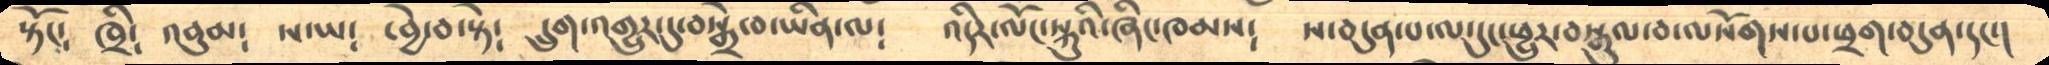སྟོང༴   ཁྲི༴  འབུམ༴   ས་ཡ༴  ་བྱེ་བ་སྟེ༴  དྲུག་འགྱུར་དུ་བསྒྲེ་བ་ཡིན་ལ༴   འདིར་ལོང་སྐུའི་ཞིང་ཁམས༴  ས་བདུན་པ་ལ་དུང་ཕྱུར་བསྒུལ་བ་ལསོགས་པ་ཕྲག་བདུན་དང་།
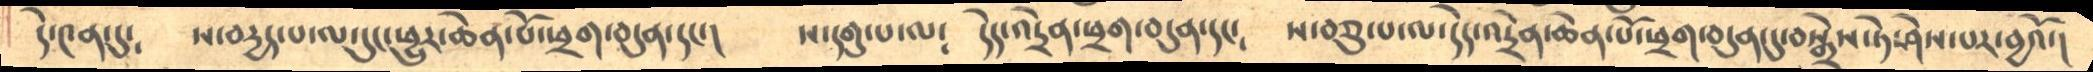དེ་༤ན་དུ༴    ས་བདྱད་པ་ལ་དུང་ཕྱུར་ཆེན་པོ་ཕྲག་བདུན་དང་།    ས་དགུ་པ་ལ༴   དེད་འདྲེན་ཕྲག་བདུན་དང༴   ས་བཅུ་པ་ལ་དེད་འདྲེན་ཆེན་པོ་ཕྲག་བདུན་དུ་བསྒྲེས་ཏེ་ཤེས་པར་བྱའོ་།
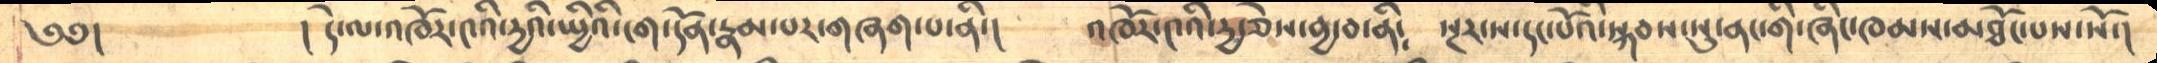༄༅།           ། དེ་ལ་འཁོར་༤འི་དྱའི་སྤྱིའི་ངག་དོན་རྣམ་པར་གཞག་པ་ནི་།    འཁོར་༤འི་དྱ་ཅེས་བྱ་བ་ནི༴   སྔར་ས་དང་པོའི་སྐབས་སུ་ནང་གི་ཞིང་ཁམས་མཐོང་པས་སོ་།
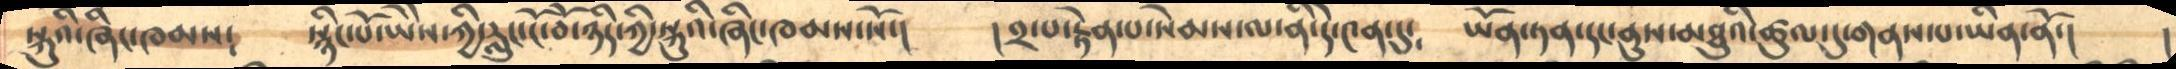སྐུའི་ཞིང་ཁམས༴   སྙིང་པོ་ཡཻས་ཀྱི་རླུང་ངོ་བོ་ཉིད་ཀྱི་སྐུའི་ཞིང་ཁམས་སོ་།    །༢་པ་རྟེན་པ་སེམས་ལ་ནི་དེ་༤ན་དུ༴  ཡོན་ཏན་དང་ནུས་མཐུའི་ཚུལ་དུ་གནས་པ་ཡིན་ནོ་།   །
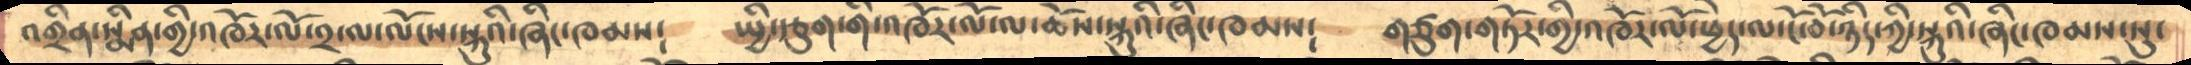འགྲིན་སྨིན་གྱི་འཁོར་ལོ་༢་ལ་ལོངས་སྐུའི་ཞིང་ཁམས༴   སྤྱི་རྩུག་གི་འཁོར་ལོ་ལ་ཆོས་སྐུའི་ཞིང་ཁམས༴   གཙུག་གཏོར་གྱི་འཁོར་ལོ་ཕྱེད་ལ་ངོ་བོ་ཉིད་ཀྱི་སྐུའི་ཞིང་ཁམས་སུ་
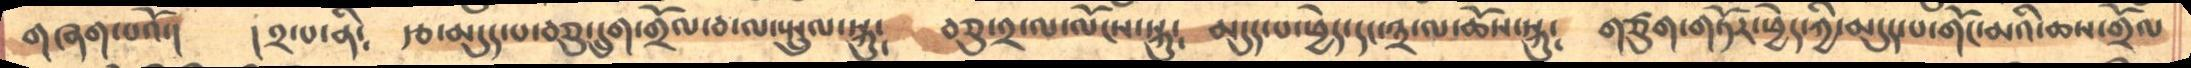གཞག་པའོ་།   །༢་པ་ནི༴   རྩ་མདུད་པ་བཅུ་དྲུག་གྲོལ་བ་ལ་སྤྲུལ་སྐུ༴   བཅུ་༢་ལ་ལོངས་སྐུ༴  མདུད་པ་ཕྱེད་དང་༣་ལ་ཆོས་སྐུ༴  གཙུག་གཏོར་ཕྱེད་ཀྱི་མདུད་པ་གོང་མའི་ཆས་གྲོལ
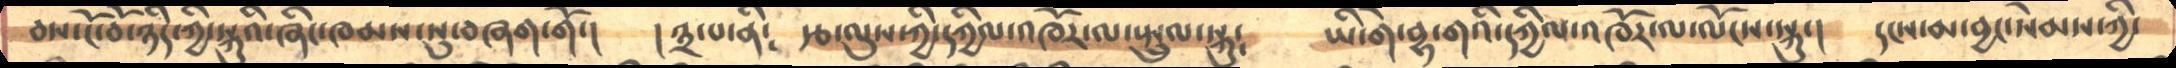བས་ངོ་བོ་ཉིད་ཀྱི་སྐུའི་ཞིང་ཁམས་སུ་བཞག་གོ་།   །༣་པ་ནི༴  རྩ་ལུས་ཀྱི་དཀྱིལ་འཁོར་ལ་སྤྲུལ་སྐུ༴  ཡི་གེ་བྷ་གའི་དཀྱིལ་འཁོར་ལ་ལོངས་སྐུ་། དངས་མ་བྱང་སེམས་ཀྱི་
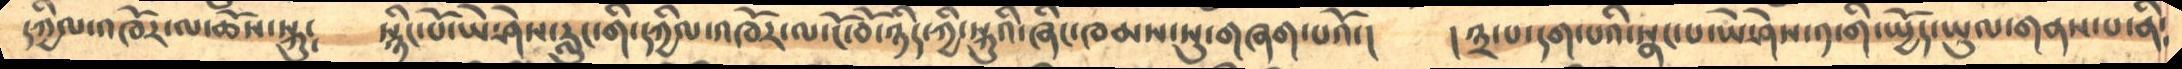དཀྱིལ་འཁོར་ལ་ཆོས་སྐུ༴    སྙིང་པོ་ཡེ་ཤེས་རླུང་གི་དཀྱིལ་འཁོར་ལ་ངོ་བོ་ཉིད་ཀྱི་སྐུའི་ཞིང་ཁམས་སུ་གཞག་པའོ་།   །༣་པ་དག་པའི་སྣང་པ་ཡེ་ཤེས་༡་གི་སྤྱོད་ཡུལ་གནས་པ་ནི༴
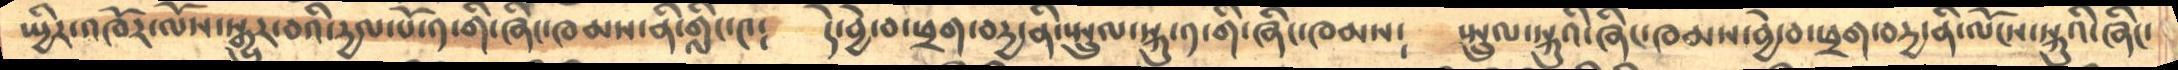སྤྱིར་འཁོར་ལོས་སྒྱུར་བའི་དྱལ་པོ་༡་གི་ཞིང་ཁམས་ནི་གླིང་༤༴   དེ་བྱེ་བ་ཕྲག་བདྱ་ནི་སྤྲུལ་སྐུ་༡་གི་ཞིང་ཁམས༴   སྤྲུལ་སྐུའི་ཞིང་ཁམས་བྱེ་བ་ཕྲག་བདྱ་ནི་ལོངས་སྐུའི་ཞིང་
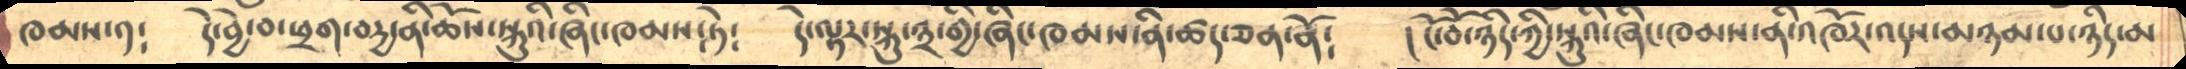ཁམས་༡༴     དེ་བྱེ་བ་ཕྲག་བདྱ་ནི་ཆོས་སྐུའི་ཞིང་ཁམས༴ཏེ༴   དེ་ལྟར་སྐུ་༣་གྱི་ཞིང་ཁམས་ནི་ཚད་ཅན་ནོ༴   ། ངོ་བོ་ཉིད་ཀྱི་སྐུའི་ཞིང་ཁམས་ནི་འཁོར་འདས་མཉམ་པ་ཉིད་མ
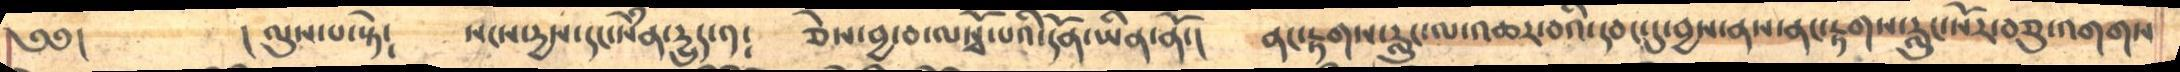༄༅།          ། ལུས་པ་སྟེ༴    སངས་དྱས་དང་སེཾན་དྱུད་༡༴   ཅེས་བྱ་བ་ལསྭོ་པའི་དོན་ཡིན་ནོ་།   ནང་རྟགས་རླུང་ལ་འཆར་བའི་དབང་དུ་བྱས་ནས་ནང་རྟགས་རླུང་སོར་བཅུ་འགགས
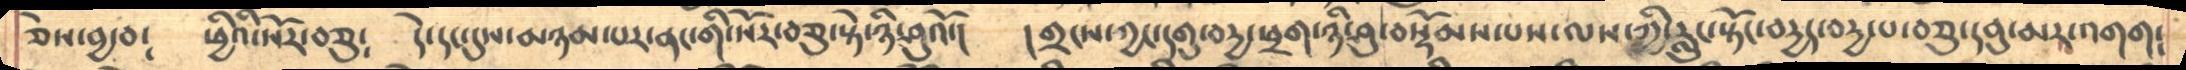ཅེས་བྱ་བ༴     ཕྱིའི་སོར་བཅུ༴    དེ་དང་དུས་མཉམ་པར་ནང་གི་སོར་བཅུ་སྟེ་ཉི་ཤུའོ་།    །གྲངས་ཀྱང་དགུ་བདྱ་ཕྲག་ཉི་ཤུ་བསྡོམས་པས་ལས་ཀྱི་རླུང་སྟོང་བདྱད་བདྱ་པ་བཅུ་དབུ་མར་འགག༴
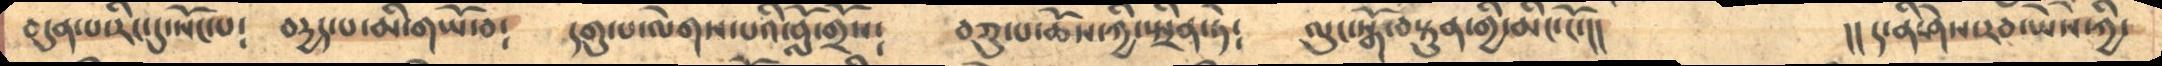བདུན་པ་རིང་དུ་སོང་པ༴     བདྱད་པ་མི་གཡོ་བ༴   དགུ་པ་ལེགས་པའི་བློ་གྲོས༴    བཅུ་པ་ཆོས་ཀྱི་སྤྲིན་ཏེ༴    ལུང་སྒོ་བསྟུན་གྱི་མིང་ངོ་།།        །། ད་ནི་ཤེས་རབ་ཡཻས་ཀྱི་
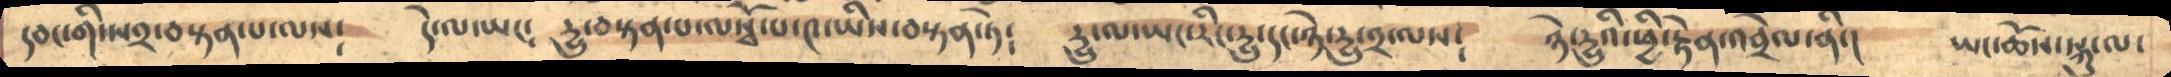དབང་གི་ས༢་བསྟན་པ་ལས༴    དེ་ལ་ཡང༴    དྱུ་བསྟན་པ་ལསྭོ་པ་༤་ཡིས་བསྟན་ཏེ༴    དྱུ་ལ་ཡང་རིང་དྱུ་དང་ཉེ་དྱུ་༢་ལས༴   ཉེ་དྱུའི་ཕྱི་རྟེན་འབྲེལ་ནི་།   ཡང་ཆོས་སྐུ་ལ་
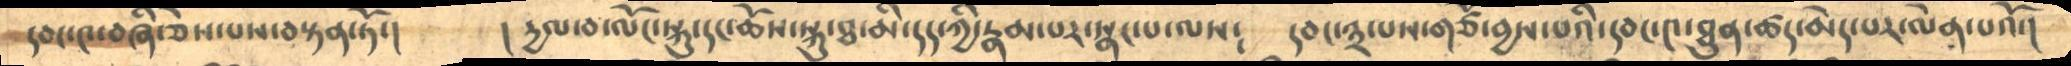དབང་༤་བཞི་ཅེས་པས་བསྟན་ཏོ་།    ། དྱལ་བ་ལོང་སྐུ་དང་ཆོས་སྐུ་ཐ་མི་དད་ཀྱི་རྣམ་པར་སྣང་པ་ལས༴     དབང་༣་པས་གཙོ་བྱས་པའི་དབང་༤་ཐུན་ཚད་མེད་པར་ལེན་པའོ་།
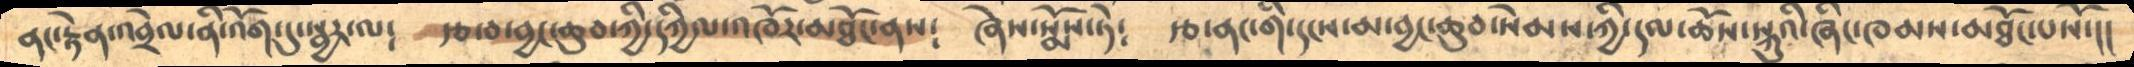ནང་རྟེན་འབྲེལ་ནི་འོག་དུ་སྦྱར་ལ༴   རྩ་བ་བྱང་ཆུབ་ཀྱི་དཀྱིལ་འཁོར་མཐོང་ནས༴    ཞེས་སྨོས་ཏེ༴   རྩ་ནང་གི་དངས་མ་བྱང་ཆུབ་སེམས་ཀྱི་དལ་ཆོས་སྐུའི་ཞིང་ཁམས་མཐོང་པསོ་།།
